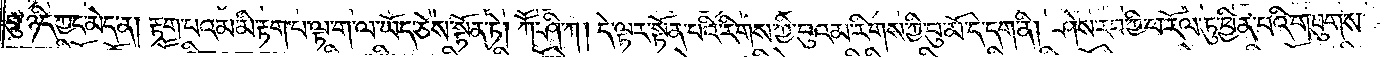བུ་ཉིད་ཀྱང་མེད་ན། རྟག་པའམ་མི་རྟག་པ་ལྟ་ག་ལ་ཡོད་ཅེས་སྟོན་ཏེ། ཀཽ་ཤི་ཀ། དེ་ལྟར་སྟོན་པའི་རིགས་ཀྱི་བུའམ་རིགས་ཀྱི་བུ་མོ་དེ་དག་ནི། ཤེས་རབ་ཀྱི་ཕ་རོལ་ཏུ་ཕྱིན་པའི་གཟུགས་
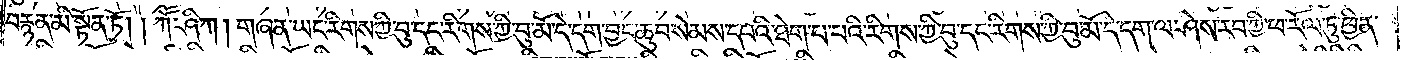བརྙན་མི་སྟོན་ཏོ། །ཀཽ་ཤི་ཀ། གཞན་ཡང་རིགས་ཀྱི་བུ་དང་རིགས་ཀྱི་བུ་མོ་དེ་དག་བྱང་ཆུབ་སེམས་དཔའི་ཐེག་པ་པའི་རིགས་ཀྱི་བུ་དང་རིགས་ཀྱི་བུ་མོ་དེ་དག་ལ་ཤེས་རབ་ཀྱི་ཕ་རོལ་ཏུ་ཕྱིན་
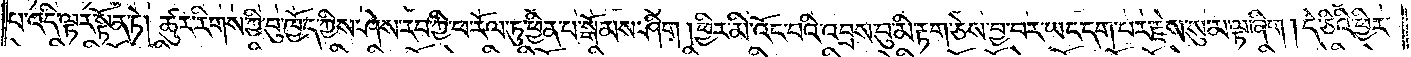པ་འདི་ལྟར་སྟོན་ཏེ། ཚུར་རིགས་ཀྱི་བུ་ཁྱོད་ཀྱིས་ཤེས་རབ་ཀྱི་ཕ་རོལ་ཏུ་ཕྱིན་པ་སྒོམས་ཤིག །ཕྱིར་མི་འོང་བའི་འབྲས་བུ་མི་རྟག་ཅེས་བྱ་བར་ཡང་དག་པར་རྗེས་སུ་མ་ལྟ་ཞིག །དེ་ཅིའི་ཕྱིར་
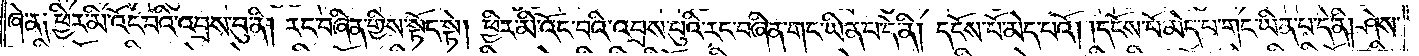ཞེ་ན༑ ཕྱིར་མི་འོང་བའི་འབྲས་བུ་ནི། རང་བཞིན་གྱིས་སྟོང་སྟེ། ཕྱིར་མི་འོང་བའི་འབྲས་བུའི་རང་བཞིན་གང་ཡིན་པ་དེ་ནི། དངོས་པོ་མེད་པའོ། །དངོས་པོ་མེད་པ་གང་ཡིན་པ་དེ་ནི། ཤེས་
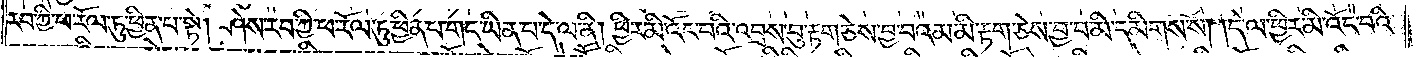རབ་ཀྱི་ཕ་རོལ་ཏུ་ཕྱིན་པ་སྟེ། ཤེས་རབ་ཀྱི་ཕ་རོལ་ཏུ་ཕྱིན་པ་གང་ཡིན་པ་དེ་ལ་ནི། ཕྱིར་མི་འོང་བའི་འབྲས་བུ་རྟག་ཅེས་བྱ་བའམ་མི་རྟག་ཅེས་བྱ་བ་མི་དམིགས་སོ། །དེ་ལ་ཕྱིར་མི་འོང་བའི་
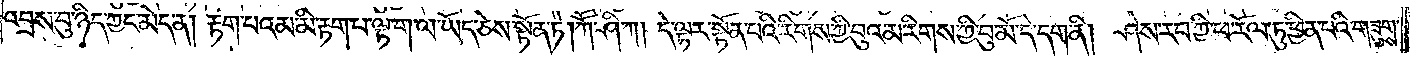འབྲས་བུ་ཉིད་ཀྱང་མེད་ན། རྟག་པའམ་མི་རྟག་པ་ལྟ་ག་ལ་ཡོད་ཅེས་སྟོན་ཏེ། ཀཽ་ཤི་ཀ། དེ་ལྟར་སྟོན་པའི་རིགས་ཀྱི་བུའམ་རིགས་ཀྱི་བུ་མོ་དེ་དག་ནི། ཤེས་རབ་ཀྱི་ཕ་རོལ་ཏུ་ཕྱིན་པའི་གཟུགས་
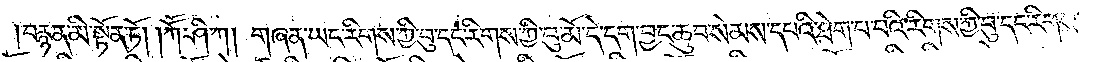བརྙན་མི་སྟོན་ཏོ། ཀཽ་ཤི་ཀ། གཞན་ཡང་རིགས་ཀྱི་བུ་དང་རིགས་ཀྱི་བུ་མོ་དེ་དག་བྱང་ཆུབ་སེམས་དཔའི་ཐེག་པ་པའི་རིགས་ཀྱི་བུ་དང་རིགས་
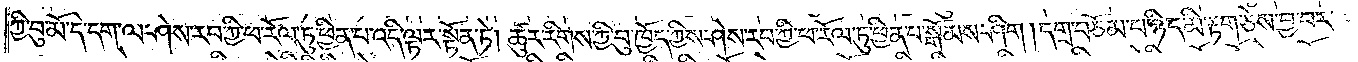ཀྱི་བུ་མོ་དེ་དག་ལ་ཤེས་རབ་ཀྱི་ཕ་རོལ་ཏུ་ཕྱིན་པ་འདི་ལྟར་སྟོན་ཏེ། ཚུར་རིགས་ཀྱི་བུ་ཁྱོད་ཀྱིས་ཤེས་རབ་ཀྱི་ཕ་རོལ་ཏུ་ཕྱིན་པ་སྒོམས་ཤིག །དགྲ་བཅོམ་པ་ཉིད་མི་རྟག་ཅེས་བྱ་བར་
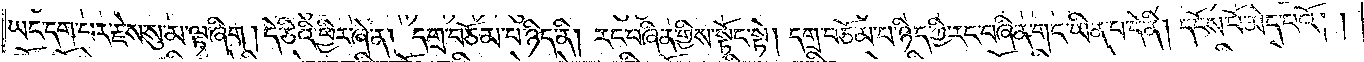ཡང་དག་པར་རྗེས་སུ་མ་ལྟ་ཞིག །དེ་ཅིའི་ཕྱིར་ཞེ་ན། དགྲ་བཅོམ་པ་ཉིད་ནི། རང་བཞིན་གྱིས་སྟོང་སྟེ། དགྲ་བཅོམ་པ་ཉིད་ཀྱི་རང་བཞིན་གང་ཡིན་པ་དེ་ནི། དངོས་པོ་མེད་པའོ། །
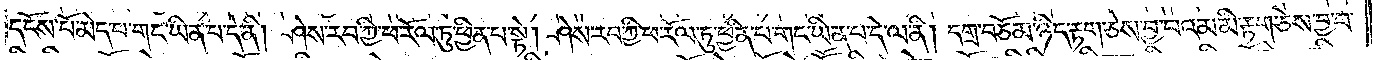དངོས་པོ་མེད་པ་གང་ཡིན་པ་དེ་ནི། ཤེས་རབ་ཀྱི་ཕ་རོལ་ཏུ་ཕྱིན་པ་སྟེ། ཤེས་རབ་ཀྱི་ཕ་རོལ་ཏུ་ཕྱིན་པ་གང་ཡིན་པ་དེ་ལ་ནི། དགྲ་བཅོམ་ཉིད་རྟག་ཅེས་བྱ་བའམ་མི་རྟག་ཅེས་བྱ་བ་
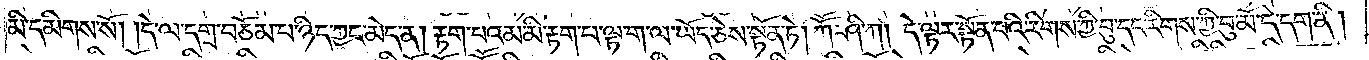མི་དམིགས་སོ། །དེ་ལ་དགྲ་བཅོམ་པ་ཉིད་ཀྱང་མེད་ན། རྟག་པའམ་མི་རྟག་པ་ལྟ་ག་ལ་ཡོད་ཅེས་སྟོན་ཏེ། ཀཽ་ཤི་ཀ། དེ་ལྟར་སྟོན་པའི་རིགས་ཀྱི་བུ་དང་རིགས་ཀྱི་བུ་མོ་དེ་དག་ནི།
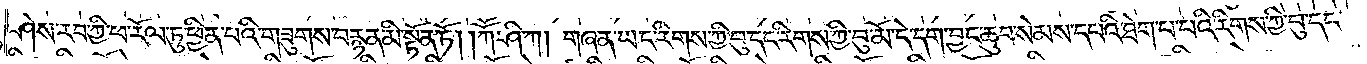ཤེས་རབ་ཀྱི་ཕ་རོལ་ཏུ་ཕྱིན་པའི་གཟུགས་བརྙན་མི་སྟོན་ཏོ། །ཀཽ་ཤི་ཀ། གཞན་ཡང་རིགས་ཀྱི་བུ་དང་རིགས་ཀྱི་བུ་མོ་དེ་དག་བྱང་ཆུབ་སེམས་དཔའི་ཐེག་པ་པའི་རིགས་ཀྱི་བུ་དང་
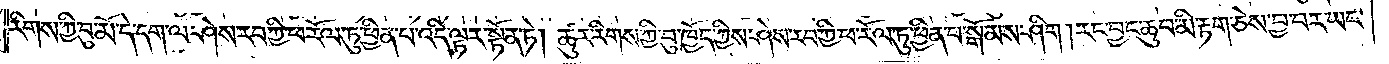རིགས་ཀྱི་བུ་མོ་དེ་དག་ལ་ཤེས་རབ་ཀྱི་ཕ་རོལ་ཏུ་ཕྱིན་པ་འདི་ལྟར་སྟོན་ཏེ། ཚུར་རིགས་ཀྱི་བུ་ཁྱོད་ཀྱིས་ཤེས་རབ་ཀྱི་ཕ་རོལ་ཏུ་ཕྱིན་པ་སྒོམས་ཤིག །རང་བྱང་ཆུབ་མི་རྟག་ཅེས་བྱ་བར་ཡང་
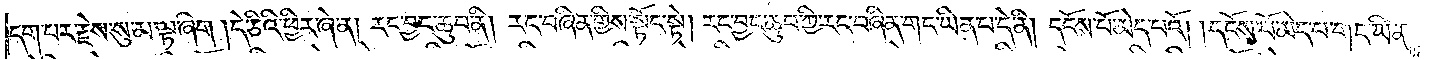དག་པར་རྗེས་སུ་མ་ལྟ་ཞིག །དེ་ཅིའི་ཕྱིར་ཞེན། རང་བྱང་ཆུབ་ནི། རང་བཞིན་གྱིས་སྟོང་སྟེ། རང་བྱང་ཆུབ་ཀྱི་རང་བཞིན་གང་ཡིན་པ་དེ་ནི། དངོས་པོ་མེད་པའོ། །དངོས་པོ་མེད་པ་གང་ཡིན་
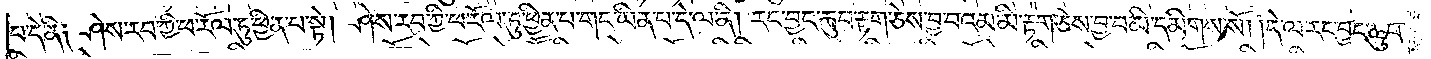པ་དེ་ནི༑ ཤེས་རབ་ཀྱི་ཕ་རོལ་ཏུ་ཕྱིན་པ་སྟེ། ཤེས་རབ་ཀྱི་ཕ་རོལ་ཏུ་ཕྱིན་པ་གང་ཡིན་པ་དེ་ལ་ནི། རང་བྱང་ཆུབ་རྟག་ཅེས་བྱ་བའམ་མི་རྟག་ཅེས་བྱ་བ་མི་དམིགས་སོ། །དེ་ལ་རང་བྱང་ཆུབ་
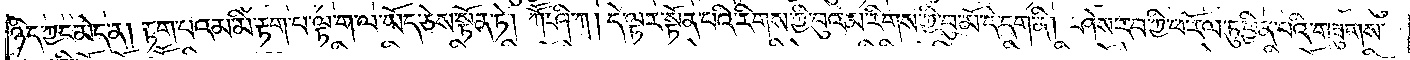ཉིད་ཀྱང་མེད་ན། རྟག་པའམ་མི་རྟག་པ་ལྟ་ག་ལ་ཡོད་ཅེས་སྟོན་ཏེ། ཀཽ་ཤི་ཀ། དེ་ལྟར་སྟོན་པའི་རིགས་ཀྱི་བུའམ་རིགས་ཀྱི་བུ་མོ་དེ་དག་ནི། ཤེས་རབ་ཀྱི་ཕ་རོལ་ཏུ་ཕྱིན་པའི་གཟུགས་
